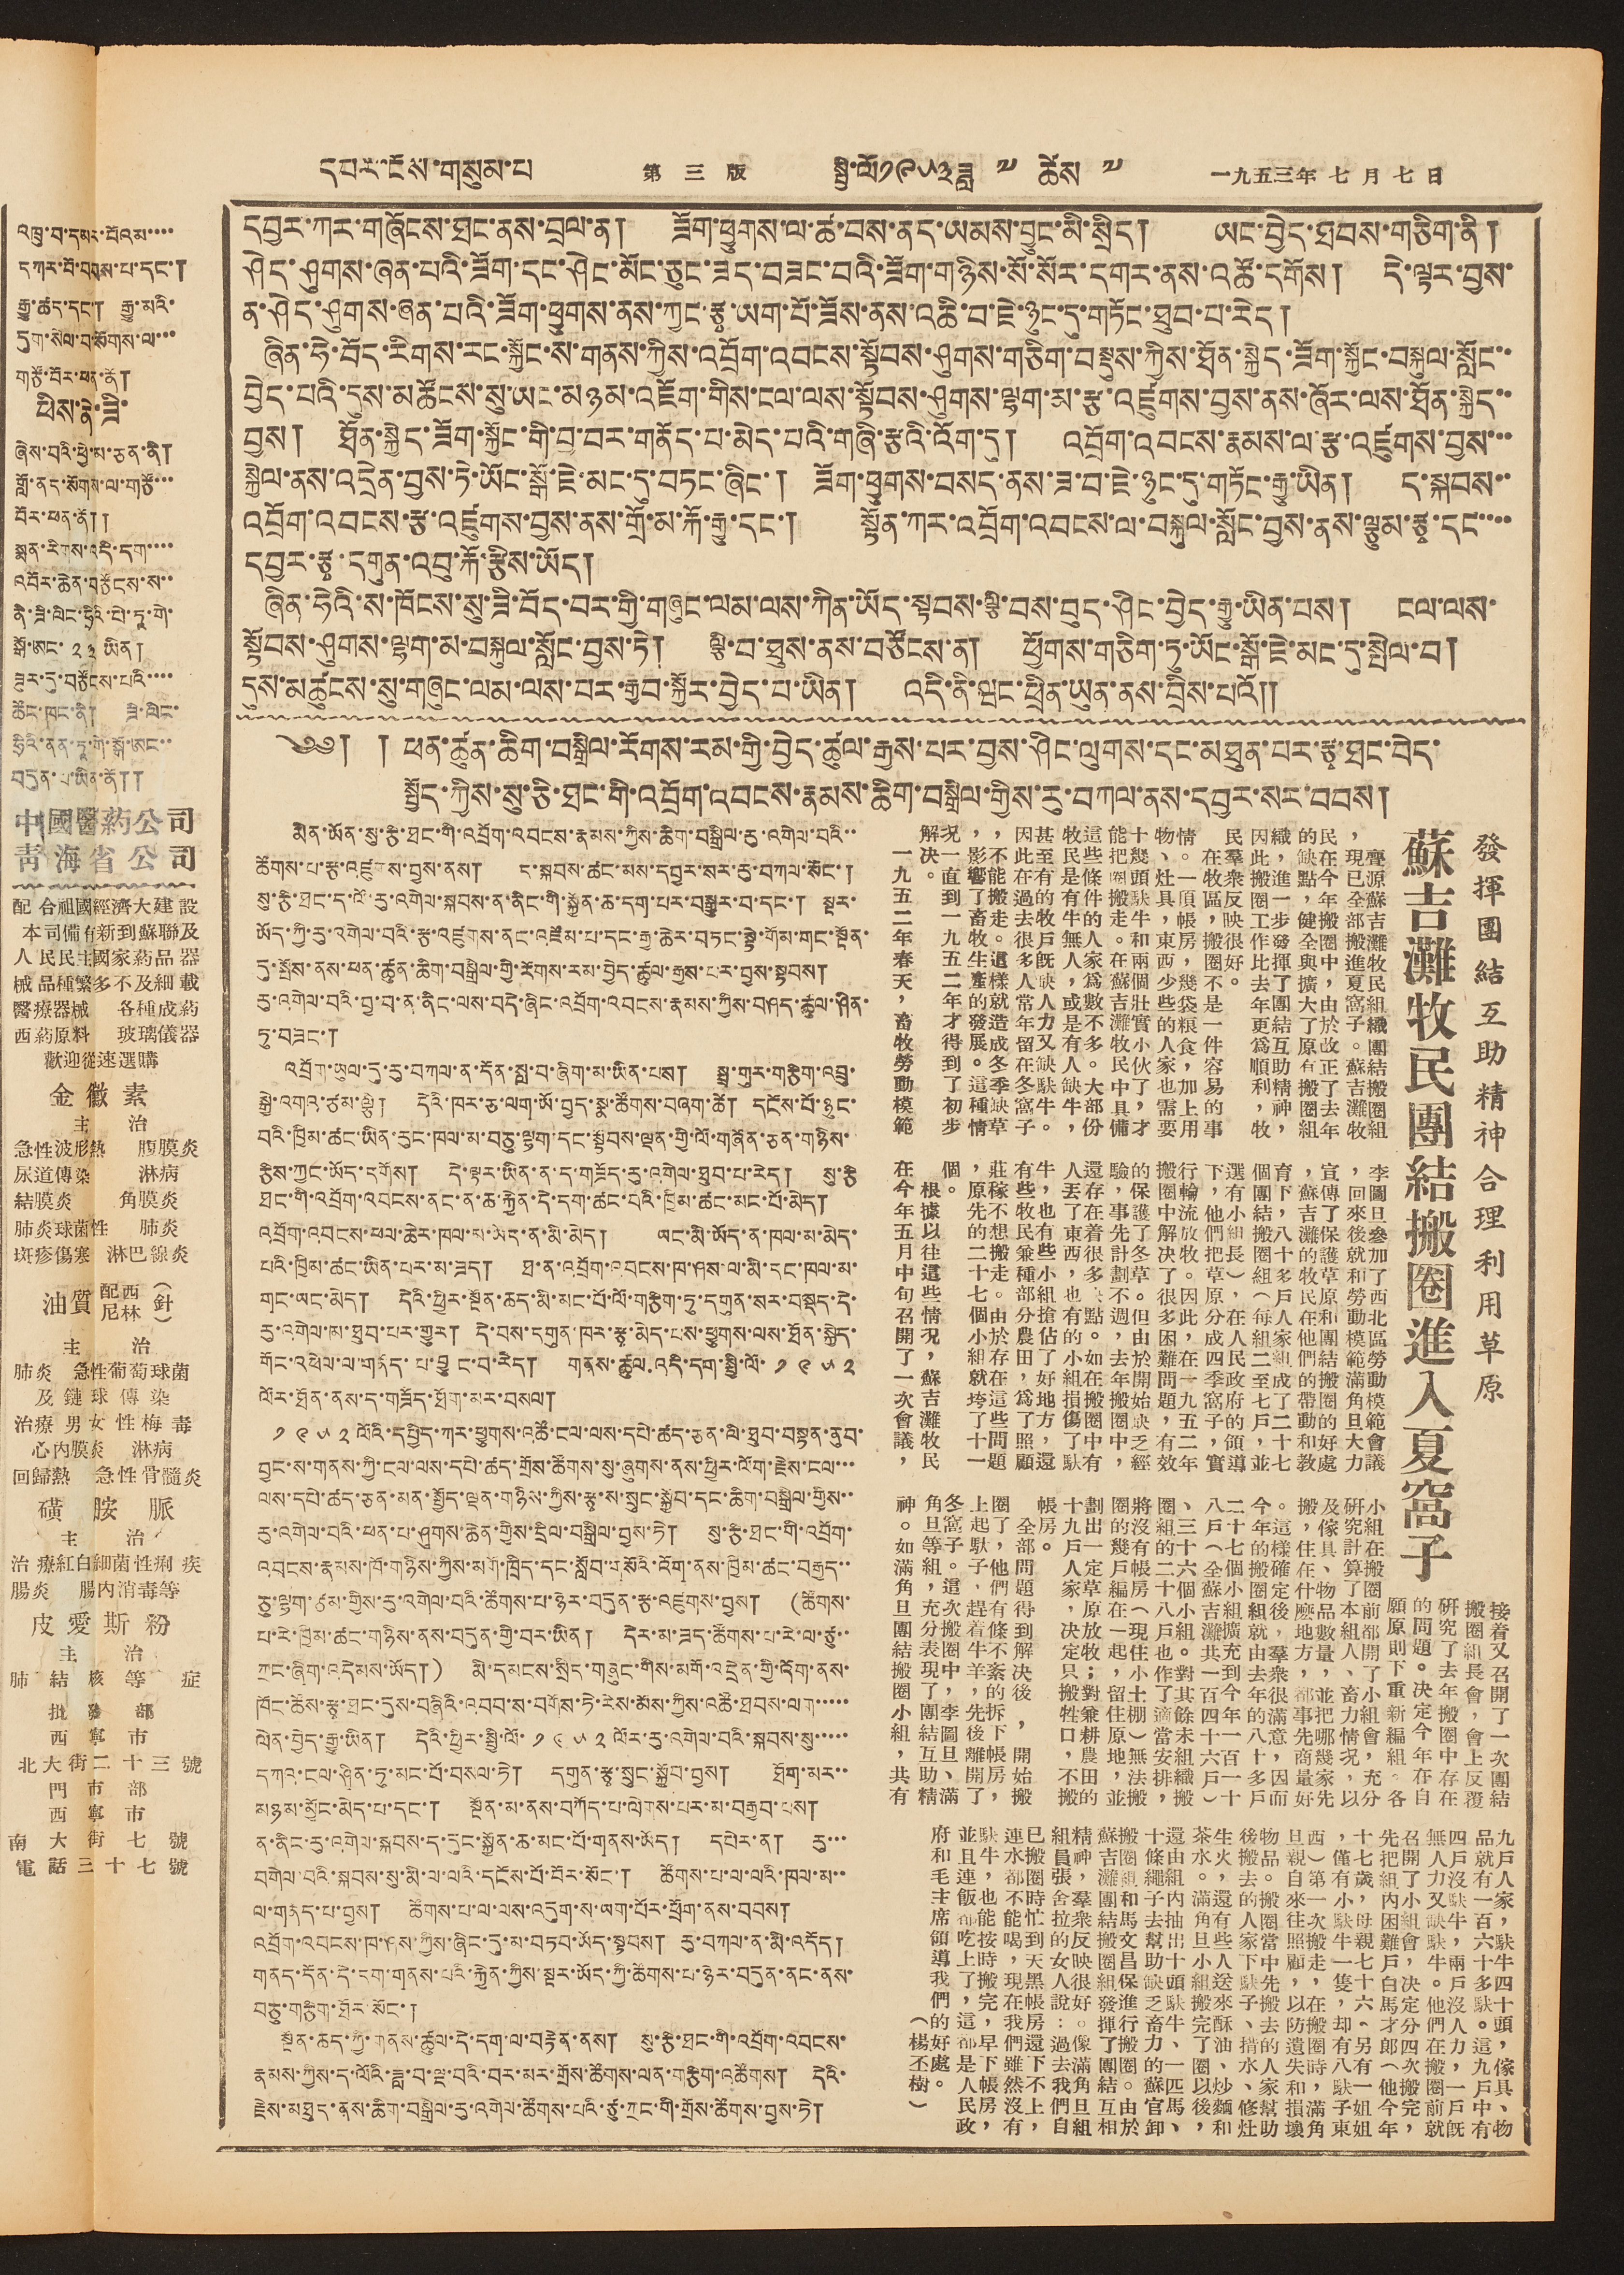དཔར་ངོས་གསུམ་པ 第 三 版 སྤྱི་ལོ ༡༩༥༣ ཟླ ༧ ཚེས ༧ 一九五三年七月七日
འཁྲུ་བ་དམར་པོའམ་་་་
དཀར་བོ་བབས་པ་དང་།
རྒྱུ་ཚད་དང་། རྒྱུ་མའི་
དུག་སེལ་བ་སོགས་ལ་་་
གཙོ་བོར་ཕན་ནོ།
ཕིས་ནེ་ཟི་
ཞེས་པའི་ཕྱེ་མ་ཅན་ནི།
གློ་ནད་སོགས་ལ་གཙོ་་་
བོར་ཕན་ནོ༎
སྨན་རིགས་འདི་དག་་་་
འབོར་ཆེན་བཙོངས་ས་་
ནི་ཟི་ལིང་ཧྲིའི་པེ་ཏཱ་གེ་
སྒོ་ཨང་ ༢༣ ཡིན།
ཟུར་དུ་བཙོངས་པའི་་་་
ཚོང་ཁང་ནི། ཟི་ལིང་
ཧྲིའི་ནན་ཏཱ་གེ་སྒོ་ཨང་་
བདུན་པ་ཡིན་ནོ༎
中國醫葯公司
青 海 省 公 司
配 合祖國經濟大建設
本司備有新到蘇聯及
人民民主國家葯品器
械 品種繁多不及細載
醫療器械 各種成葯
西葯原料 玻璃儀器
歡迎從速選購
金 黴 素
主 治
急性波形熱 腹膜炎
尿道傳染 淋病
結膜炎 角膜炎
肺炎球菌性 肺炎
斑疹傷寒 淋巴線炎
油質
配尼
西林
（針）
主 治
肺炎 急性葡萄球菌
及 鏈 球 傳 染
治療 男 女 性 梅 毒
心內膜炎 淋病
回歸熱 急性骨髓炎
磺 胺 脈
主 治
治 療紅白細菌性痢 疾
腸炎 腸內消毒等
皮 愛 斯 粉
主 治
肺 結 核 等 症
批 發 部
西 寧 市
北大街二十三號
門 市 部
西 寧 市
南 大 街 七 號
電 話 三 十 七 號
དབྱར་ཀར་གཞོངས་ཐང་ནས་བྲལ་ན། ཟོག་ཕྱུགས་ལ་ཚ་བས་ནད་ཡམས་བྱུང་མི་སྲིད། ཡང་བྱེད་ཐབས་གཅིག་ནི།
ཤེད་ཤུགས་ཞན་པའི་ཟོག་དང་ཤེང་མོང་ཅུང་ཟད་བཟང་བའི་ཟོག་གཉིས་སོ་སོར་དགར་ནས་འཚོ་དགོས། དེ་ལྟར་བྱས་
ན་ཤེད་ཤུགས་ཞན་པའི་ཟོག་ཕྱུགས་ནས་ཀྱང་རྩྭ་ཡག་པོ་ཟོས་ནས་འཆི་བ་ཇེ་ཉུང་དུ་གཏོང་ཐུབ་པ་རེད།
ཞིན་ཧེ་བོད་རིགས་རང་སྐྱོང་ས་གནས་ཀྱིས་འབྲོག་འབངས་སྟོབས་ཤུགས་གཅིག་བསྡུས་ཀྱིས་ཐོན་སྐྱེད་ཟོག་སྐྱོང་བསྐུལ་སློང་་
བྱེད་པའི་དུས་མཚོངས་སུ་ཡང་མཉམ་འཇོག་གིས་ངལ་ལས་སྟོབས་ཤུགས་ལྷག་མ་རྩ་འཛུགས་བྱས་ནས་ཞོར་ལས་ཐོན་སྐྱེད་་
བྱས། ཐོན་སྐྱེད་ཟོག་སྐྱོང་གི་བྱ་བར་གནོད་པ་མེད་པའི་གཞི་རྩའི་འོག་དུ། འབྲོག་འབངས་རྣམས་ལ་རྩ་འཛུགས་བྱས་་་
སྐྱེལ་ནས་འདྲེན་བྱས་ཏེ་ཡོང་སྒོ་ཇེ་མང་དུ་བཏང་ཞིང་། ཟོག་ཕྱུགས་བསད་ནས་ཟ་བ་ཇེ་ཉུང་དུ་གཏོང་རྒྱུ་ཡིན། ད་སྐབས་་
འབྲོག་འབངས་རྩ་འཛུགས་བྱས་ནས་གྲོ་མ་རྐོ་རྒྱུ་དང་། སྟོན་ཀར་འབྲོག་འབངས་ལ་བསྐུལ་སློང་བྱས་ནས་ལྕུམ་རྩྭ་དང་་་་
དབྱར་རྩྭ་དགུན་འབུ་རྐོ་རྩིས་ཡོད།
ཞིན་ཧེའི་ས་ཁོངས་སུ་ཟི་བོད་བར་གྱི་གཞུང་ལམ་ལས་ཀིན་ཡོད་སྟབས་ལྕི་བས་བུད་ཤིང་བྱེད་རྒྱུ་ཡིན་པས། ངལ་ལས་
སྟོབས་ཤུགས་ལྷག་མ་བསྐུལ་སློང་བྱས་ཏེ། ལྕི་བ་ཐུས་ནས་བཙོངས་ན། ཕྱོགས་གཅིག་ཏུ་ཡོང་སྒོ་ཇེ་མང་དུ་སྤེལ་བ།
དུས་མཚུངས་སུ་གཞུང་ལམ་ལས་པར་རྒྱབ་སྐྱོར་བྱེད་པ་ཡིན། འདི་ནི་ཝང་ཕྲིན་ཡུན་ནས་བྲིས་པའོ༎
༄༅། ། ཕན་ཚུན་ཆིག་བསྒྲིལ་རོགས་རམ་གྱི་བྱེད་ཚུལ་རྒྱས་པར་བྱས་ཤིང་ལུགས་དང་མཐུན་པར་རྩྭ་ཐང་བེད་
སྤྱོད་ཀྱིས་སུ་ཅི་ཐང་གི་འབྲོག་འབངས་རྣམས་ཆིག་བསྒྲིལ་གྱིས་རུ་བཀལ་ནས་དབྱར་སང་བབས།
མེན་ཡོན་སུ་ཅི་ཐང་གི་འབྲོག་འབངས་རྣམས་ཀྱིས་ཆིག་བསྒྲིལ་རུ་འགེལ་བའི་་
ཚོགས་པ་རྩ་འཛུགས་བྱས་ནས། ད་སྐབས་ཚང་མས་དབྱར་སར་རུ་བཀལ་སོང་།
སུ་ཅི་ཐང་ད་ལོ་རུ་འགེལ་སྐབས་ན་ནིང་གི་སྐྱོན་ཆ་དག་པར་བསྒྱུར་བ་དང་། སྔར་
ཡོད་ཀྱི་རུ་འགེལ་བའི་རྩ་འཛུགས་ནང་འཛོམ་པ་དང་རྒྱ་ཆེར་བཏང་སྟེ་གོམ་གང་སྔོན་
དུ་སྤོས་ནས་ཕན་ཚུན་ཆིག་བསྒྲིལ་གྱི་རོགས་རམ་བྱེད་ཚུལ་རྒྱས་པར་བྱས་སྟབས།
རུ་འགེལ་བའི་བྱ་བ་ན་ནིང་ལས་བདེ་ཞིང་འབྲོག་འབངས་རྣམས་ཀྱིས་བཤད་ཚུལ་ཤིན་
ཏུ་བཟང་།
འབྲོག་ཡུལ་དུ་རུ་བཀལ་ན་དོན་སླ་བ་ཞིག་མ་ཡིན་པས། སྦྲ་གུར་གཅིག་འབྲུ་
སྒྱེ་འགའ་ཙམ་ལྕི། དེའི་ཁར་ཅ་ལག་ཡོ་བྱད་སྣ་ཚོགས་བཞག་ཚེ། དངོས་པོ་ཉུང་
བའི་ཁྱིམ་ཚང་ཡིན་རུང་ཁལ་མ་བཅུ་ལྷག་དང་སྟོབས་ལྡན་གྱི་ལོ་གཞོན་ཅན་གཉིས་
ཅིས་ཀྱང་ཡོད་དགོས། དེ་ལྟར་ཡིན་ན་ད་གཟོད་རུ་འགེལ་ཐུབ་པ་རེད། སུ་ཅི
ཐང་གི་འབྲོག་འབངས་ནང་ན་ཆ་རྐྱེན་དེ་དག་ཚང་བའི་ཁྱིམ་ཚང་མང་པོ་མེད།
འབྲོག་འབངས་ཕལ་ཆེར་ཁལ་མ་ཡོད་ན་མི་མེད། ཡང་མི་ཡོད་ན་ཁལ་མ་མེད་
པའི་ཁྱིམ་ཚང་ཡིན་པར་མ་ཟད། ཐ་ན་འབྲོག་འབངས་ཁ་ཤས་ལ་མི་དང་ཁལ་མ་
གང་ཡང་མེད། དེའི་ཕྱིར་སྔོན་ཆད་མི་མང་པོ་ལོ་གཅིག་ཏུ་དགུན་སར་བསྡད་དེ་
རུ་འགེལ་མ་ཐུབ་པར་གྱུར། དེ་བས་དགུན་ཁར་རྩྭ་མེད་པས་ཕྱུགས་ལས་ཐོན་སྐྱེད་
གོང་འཕེལ་ལ་གནོད་པ་བྱུང་བ་རེད། གནས་ཚུལ འདི་དག་སྤྱི་ལོ་ ༡ ༩ ༥ ༢
ལོར་ཐོན་ནས་ད་གཟོད་ཐོག་མར་བསལ།
༡ ༩ ༥ ༢ ལོའི་དཔྱིད་ཀར་ཕྱུགས་འཚོ་ངལ་ལས་དཔེ་ཚད་ཅན་ལི་ཐུབ་བསྟན་ནུབ་
བྱང་ས་གནས་ཀྱི་ངལ་ལས་དཔེ་ཚད་གྲོས་ཚོགས་སུ་ཞུགས་ནས་ཕྱིར་ལོག་རྗེས་ངལ་་་
ལས་དཔེ་ཚད་ཅན་མན་སྤྱོད་ལྡན་གཉིས་ཀྱིས་རྩྭ་ས་སྲུང་སྐྱོབ་དང་ཆིག་བསྒྲིལ་གྱིས་་
རུ་འགེལ་བའི་ཕན་པ་ཤུགས་ཆེན་གྱིས་དྲིལ་བསྒྲིལ་བྱས་ཏེ། སུ་ཅི་ཐང་གི་འབྲོག་
འབངས་རྣམས་ཁོ་གཉིས་ཀྱིས་མགོ་ཁྲིད་དང་སློབ་གསོའི་འོག་ནས་ཁྱིམ་ཚང་བརྒྱད་་
ཅུ་ལྷག་ཙམ་གྱིས་རུ་འགེལ་བའི་ཚོགས་པ་ཉེར་བདུན་རྩ་འཛུགས་བྱས། (ཚོགས་
པ་རེ་ཁྱིམ་ཚང་གཉིས་ནས་བདུན་གྱི་བར་ཡིན། དེར་མ་ཟད་ཚོགས་པ་རེ་ལ་ཙུ་་
ཀྲང་ཞིག་འདེམས་ཡོད།) མི་དམངས་སྲིད་གཞུང་གིས་མགོ་འདྲེན་གྱི་འོག་ནས་
ཁོང་ཚོས་རྩྭ་ཐང་དུས་བཞིའི་འབབ་ས་བགོས་ཏེ་རེས་མོས་ཀྱིས་འཚོ་ཐབས་ལག་་་་་
ལེན་བྱེད་རྒྱུ་ཡིན། དེའི་ཕྱིར་སྤྱི་ལོ་ ༡ ༩ ༥ ༢ ལོར་རུ་འགེལ་བའི་སྐབས་སུ་་་་་
དཀའ་ངལ་ཤིན་ཏུ་མང་པོ་བསལ་ཏེ། དགུན་རྩྭ་སྲུང་སྐྱོབ་བྱས། ཐོག་མར་་
མཉམ་མྱོང་མེད་པ་དང་། སྔོན་མ་ནས་བཀོད་པ་ལེགས་པར་མ་བརྒྱབ་པས།
ན་ནིང་རུ་འགེལ་སྐབས་ད་དུང་སྐྱོན་ཆ་མང་པོ་གནས་ཡོད། དཔེར་ན། རུ་་་
བགེལ་བའི་སྐབས་སུ་མི་ལ་ལའི་དངོས་པོ་བོར་སོང་། ཚོགས་པ་ལ་ལའི་ཁལ་མ་་
ལ་གནོད་པ་བྱས། ཚོགས་པ་ལ་ལས་འདུག་ས་ཡག་པོར་ཕྲོག་ནས་བབས།
འབྲོག་འབངས་ཁ་ཤས་ཀྱིས་ཞིང་དུ་མ་བཏབ་ཡོད་སྟབས། རུ་བཀལ་ན་མི་འདོད།
གནད་དོན་དེ་དག་གནས་པའི་རྐྱེན་ཀྱིས་སྔར་ཡོད་ཀྱི་ཚོགས་པ་ཉེར་བདུན་ནང་ནས་
བཅུ་གཅིག་ཐོར་སོང་།
སྔོན་ཆད་ཀྱི་གནས་ཚུལ་དེ་དག་ལ་བརྟེན་ནས། སུ་ཅི་ཐང་གི་འབྲོག་འབངས་
རྣམས་ཀྱིས་ད་ལོའི་ཟླ་བ་ལྔ་བའི་བར་མར་གྲོས་ཚོགས་ལན་གཅིག་འཚོགས། དེའི་
རྗེས་མཐུད་ནས་ཆིག་བསྒྲེལ་རུ་འགེལ་ཚོགས་པའི་ཙུ་ཀྲང་གི་གྲོས་ཚོགས་བྱས་ཏེ།
發揮團結互助精神合理利用草原
蘇吉灘牧民團結搬遷進入夏窩子
亹源蘇吉灘牧民組織團結搬圈組
，現已全部搬進夏窩子。蘇吉灘牧
民在今年搬圈中，由於改正了去年
的缺點，健全與擴大了原有搬圈組
織，進一步發揮了團結互助精神，
因此搬圈工作比去年更爲順利，牧
民羣衆反應很好。
在牧區，搬圈不是一件容易的事
情。一頂帳房，幾袋粮食，加上用
物、灶具，東西少些的人家也需要
十幾頭䭾牛和兩個壯實小伙了，才
能把圈搬走。在蘇吉灘牧民中具備
這些條件的人家爲數不多。大部分
牧民是有牛無人，或是有人缺牛，
甚至有的牧戶既缺人力又缺䭾牛。
因此在過去很多人常年留在冬窩子
，不能搬走。這樣就造成冬季缺草
，影響了畜牧生產的發展。這種情
况一直到一九五二年才得到了初步
解决。
一九五二年春天，畜牧勞動模範
李圖旦參加了西北區勞動模範會議
，回來後就和勞動模範滿角旦大力
宣傳了保護草原和團結搬圈的好處
，蘇吉灘的牧民在他們的帶動和教
育下，八十多戶人家組成了二十七
個團結搬圈組（每組二至七戶，並
選有小組長），在人民政府的領導
下，他們把草原分成四季窩子，實
行輪流放牧。因此，在一九五二年
搬圈中解决了很多困難問題，有效
的保護了冬草。但由於開始缺乏經
驗，實現計劃不週，去年搬圈中，
還存在着很多缺點。如在搬圈中有
人丟了東西，也有的小組損傷了䭾
牛，也有些小組搶佔了好地方，還
有些牧民兼種部分農田，爲了照顧
莊稼不想搬走。由於存在這些問題
，原先的二十七個小組就垮了十一
個。
根據以往這些情况，蘇吉灘牧民
在今年五月中旬召開了一次會議，
接着又召開了一次團結
搬圈組長會，會上反覆
研究了去年搬圈中存在
的問題。決定今年在自
願原則下重新編組。各
小組在搬圈前都開了小組會，充分
研究計算了本組人、畜力情况，以
及傢具、物品數量，並把哪幾家先
搬，住在什麼地方，都事先商量好
。這樣確定後，羣衆很滿意，因而
今年的搬圈組就由去年的八十多戶
二十七個小組擴充到今年一百一十
八戶（全蘇吉灘共一百四十六戶）
、三十六個小組。對其餘未組織搬
圈組的二十八戶也作了適當安排，
將沒有帳房（現住小土棚）無法搬
圈的幾戶編在一起，留住原地，並
劃出一定草原放牧；對兼耕農田的
十九戶人家，決定只搬牲口，不搬
帳房。
全部問題得到解决後，開始搬
圈了，他們有條不紊的拆下帳房，
上起䭾子，趕着牛羊，先後離開了
冬窩子。這次搬圈中，李圖旦、滿
角旦等組，充分表現了團結互助精
神。如滿角旦團結搬圈小組，共有
九戶人家，䭾牛四十頭，傢具、物
品就有一百六十多䭾。這九戶中有
四戶沒䭾牛，兩戶沒人力，一戶既
無人力又缺䭾牛。他們在搬圈前就
召開了小組會，決定分四次搬完，
先把組內困難戶白馬才郎（他今年
十七歲，母親七十六，另有一姐姐
，僅有小䭾牛一隻，卻有八䭾子東
西）第一次搬走，在搬圈時，滿角
旦親自來往照顧，以防遺失和損壞
物品。搬圈當中先搬去的人家幫助
後搬去的人家下䭾子、揹水、修灶
生火，還有些人送來酥油、炒麵和
茶水。滿角旦小組搬完了圈以後，
還由組內抽出十頭䭾牛、一匹馬、
十條繩子去幫助缺乏畜力的蘇官卸
搬圈組和馬文昌保進行搬圈。由於
蘇吉灘團結搬圈組發揮了團結互相
精神，羣衆反映很好。像滿角旦組
組員張舍拉的女人說：過去我們自
己搬圈時忙到天黑帳房還下不上，
連水都不能喝，現在我們雖然沒有
䭾牛，也能按時搬完，早下帳房，
並且連飯都吃上了，這都是人民政
府和毛主席領導我們的好處。
（楊丕樹）
